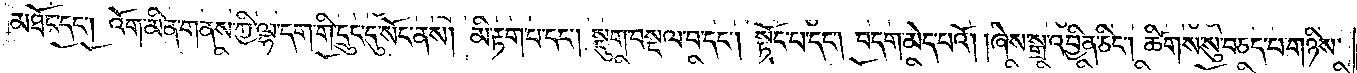མཐོང་དང༌། འོག་མིན་གནས་ཀྱི་ལྷ་དག་གི་དྲུང་དུ་སོང་ནས། མི་རྟག་པ་དང༌། སྡུག་བསྔལ་བ་དང༌། སྟོང་པ་དང༌། བདག་མེད་པའོ། །ཞེས་སྒྲ་འབྱིན་ཅིང༌། ཚིགས་སུ་བཅད་པ་གཉིས་
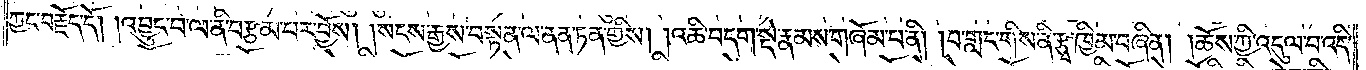ཀྱང་བརྗོད་དོ། །འབྱུང་བ་ལ་ནི་བརྩམ་པར་བྱོས། །སངས་རྒྱས་བསྟན་ལ་ནན་ཏན་གྱིས། །འཆི་བདག་སྡེ་རྣམས་གཞོམ་པ་ནི། །བ་གླང་གིས་ནི་རྩྭ་ཁྱིམ་བཞིན། །ཆོས་ཀྱི་འདུལ་བ་འདི་
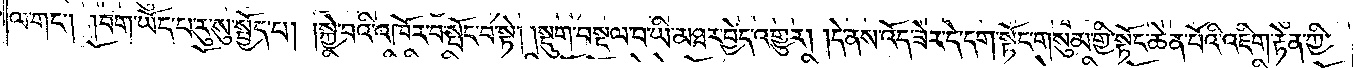ལ་གང༌། །བག་ཡོད་པ་རུ་སུ་སྤྱོད་པ། །སྐྱེ་བའི་འཁོར་བ་སྤོང་བ་སྟེ། །སྡུག་བསྔལ་བ་ཡི་མཐར་བྱེད་འགྱུར། །དེ་ནས་འོད་ཟེར་དེ་དག་སྟོང་གསུམ་གྱི་སྟོང་ཆེན་པོའི་འཇིག་རྟེན་ཀྱི་
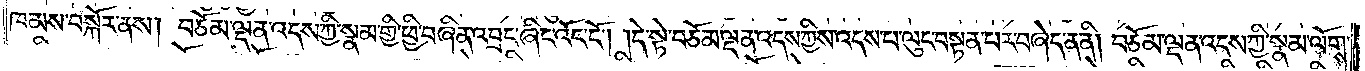ཁམས་བསྐོར་ནས། བཅོམ་ལྡན་འདས་ཀྱི་སྣམ་གྱི་ཕྱི་བཞིན་འབྲང་ཞིང་འོང་ངོ༌། །དེ་སྟེ་བཅོམ་ལྡན་འདས་ཀྱིས་འདས་པ་ལུང་བསྟན་པར་བཞེད་ན་ནི། བཅོམ་ལྡན་འདས་ཀྱི་སྣམ་ལོགས་
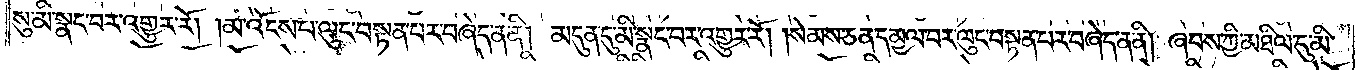སུ་མི་སྣང་བར་འགྱུར་རོ། །མ་འོངས་པ་ལུང་བསྟན་པར་བཞེད་ན་ནི། མདུན་དུ་མི་སྣང་བར་འགྱུར་རོ། །སེམས་ཅན་དམྱལ་བར་ལུང་བསྟན་པར་བཞེད་ན་ནི། ཞབས་ཀྱི་མཐིལ་དུ་མི་
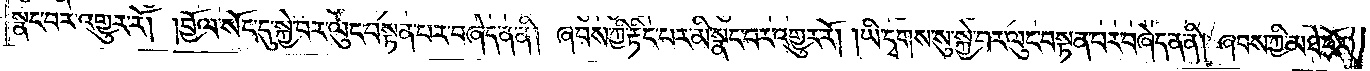སྣང་བར་འགྱུར་རོ། །བྱོལ་སོང་དུ་སྐྱེ་བར་ལུང་བསྟན་པར་བཞེད་ན་ནི། ཞབས་ཀྱི་རྟིང་པར་མི་སྣང་བར་འགྱུར་རོ། །ཡི་དྭགས་སུ་སྐྱེ་བར་ལུང་བསྟན་པར་བཞེད་ན་ནི། ཞབས་ཀྱི་མཐེ་བོར་
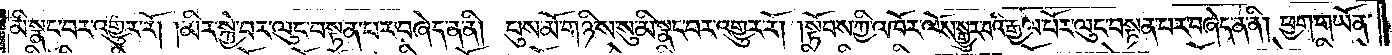མི་སྣང་བར་འགྱུར་རོ། །མིར་སྐྱེ་བར་ལུང་བསྟན་པར་བཞེད་ན་ནི། པུས་མོ་གཉིས་སུ་མི་སྣང་བར་འགྱུར་རོ། །སྟོབས་ཀྱི་འཁོར་ལོས་སྒྱུར་བའི་རྒྱལ་པོར་ལུང་བསྟན་པར་བཞེད་ན་ནི། ཕྱག་གཡོན་
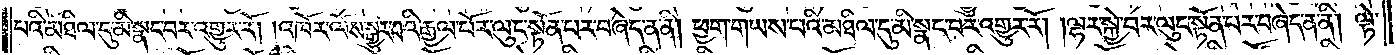པའི་མཐིལ་དུ་མི་སྣང་བར་འགྱུར་རོ། །འཁོར་ལོས་སྒྱུར་བའི་རྒྱལ་པོར་ལུང་སྟོན་པར་བཞེད་ན་ནི། ཕྱག་གཡས་པའི་མཐིལ་དུ་མི་སྣང་བར་འགྱུར་རོ། །ལྷར་སྐྱེ་བར་ལུང་སྟོན་པར་བཞེད་ན་ནི། ལྟེ་
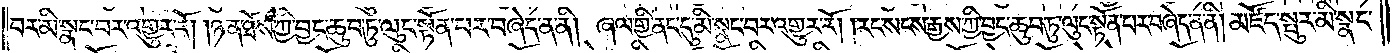བར་མི་སྣང་བར་འགྱུར་རོ། །ཉན་ཐོས་ཀྱི་བྱང་ཆུབ་ཏུ་ལུང་སྟོན་པར་བཞེད་ན་ནི། ཞལ་གྱི་ནང་དུ་མི་སྣང་བར་འགྱུར་རོ། །རང་སངས་རྒྱས་ཀྱི་བྱང་ཆུབ་ཏུ་ལུང་སྟོན་པར་བཞེད་ན་ནི། མཛོད་སྤུར་མི་སྣང་
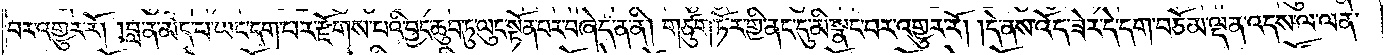བར་འགྱུར་རོ། །བླ་ན་མེད་པ་ཡང་དག་པར་རྫོགས་པའི་བྱང་ཆུབ་ཏུ་ལུང་སྟོན་པར་བཞེད་ན་ནི། གཙུག་ཏོར་གྱི་ནང་དུ་མི་སྣང་བར་འགྱུར་རོ། །དེ་ནས་འོད་ཟེར་དེ་དག་བཅོམ་ལྡན་འདས་ལ་ལན་
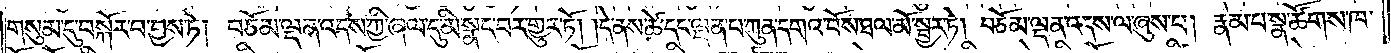གསུམ་དུ་བསྐོར་བ་བྱས་ཏེ། བཅོམ་ལྡན་འདས་ཀྱི་ཞལ་དུ་མི་སྣང་བར་གྱུར་ཏོ། །དེ་ནས་ཚེ་དང་ལྡན་པ་ཀུན་དགའ་བོས་ཐལ་མོ་སྦྱར་ཏེ། བཅོམ་ལྡན་འདས་ལ་ཞུས་པ། རྣམ་པ་སྣ་ཚོགས་ཁ་
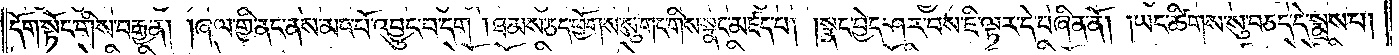དོག་སྟོང་གིས་བརྒྱན། །ཞལ་གྱི་ནང་ནས་མང་པོ་འབྱུང་བ་དག །ཐམས་ཅད་ཕྱོགས་སུ་གང་གིས་སྣང་མཛད་པ། །སྣང་བྱེད་ཤར་བས་ཇི་ལྟར་དེ་བཞིན་ནོ། །ཡང་ཚིགས་སུ་བཅད་དེ་སྨྲས་པ།
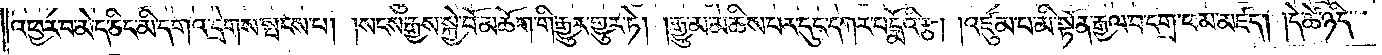འཕྱར་བ་མེད་ཅིང་མི་དགའ་དྲེགས་སྤངས་པ། སངས་རྒྱས་སྐྱེ་བོ་མཆོག་གི་རྒྱུར་གྱུར་ཏེ། །རྒྱུ་མ་མཆིས་པར་དུང་དཀར་པདྨོའི་རྩ། །འཛུམ་པ་མི་སྟོན་རྒྱལ་བ་དགྲ་ཕམ་མཛད། །དེ་ཚེ་ཉིད་
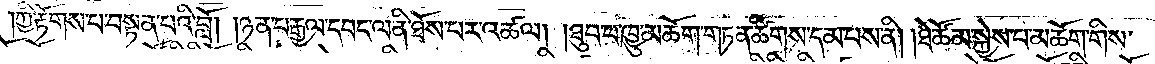ཀྱི་རྟོགས་པ་བསྟན་པའི་བློ། །ཉན་པ་རྒྱལ་དབང་ལ་ནི་ཐོས་པར་འཚལ། །ཐུབ་པ་ཁྱུ་མཆོག་གཏན་ཚིགས་དམ་པས་ནི། །ཐེ་ཚོམ་སྐྱེས་པ་མཆོག་གིས་
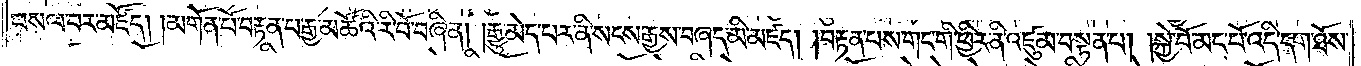བསལ་བར་མཛོད། །མགོན་པོ་བརྟན་པ་རྒྱ་མཚོའི་རི་བོ་བཞིན། །རྒྱུ་མེད་པར་ནི་སངས་རྒྱས་བཞད་མི་མཛད། །བརྟན་པས་གང་གི་ཕྱིར་ནི་འཛུམ་བསྟན་པ། །སྐྱེ་བོ་མང་པོ་འདི་དག་ཐོས་
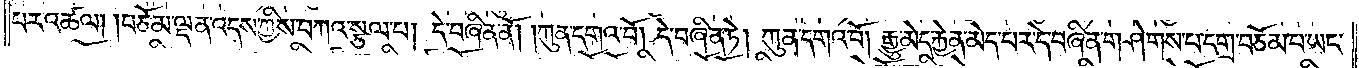པར་འཚལ། །བཅོམ་ལྡན་འདས་ཀྱིས་བཀའ་སྩལ་པ། དེ་བཞིན་ནོ། །ཀུན་དགའ་བོ། དེ་བཞིན་ཏེ། ཀུན་དགའ་བོ། རྒྱུ་མེད་རྐྱེན་མེད་པར་དེ་བཞིན་གཤེགས་པ་དགྲ་བཅོམ་པ་ཡང་
